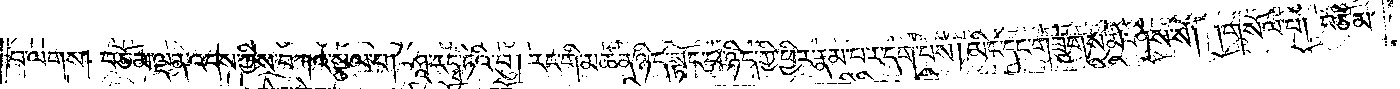བ་ལགས། བཅོམ་ལྡན་འདས་ཀྱིས་བཀའ་སྩལ་པ། ཤཱ་ར་དྭ་ཏིའི་བུ། རང་གི་མཚན་ཉིད་སྟོང་པ་ཉིད་ཀྱི་ཕྱིར་རྣམ་པར་དག་པས། མིང་དང་གཟུགས་མི་ཤེས་སོ། །གསོལ་པ། བཅོམ་
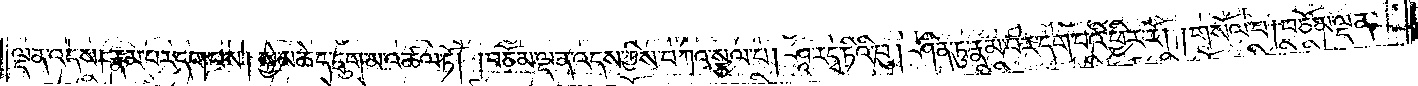ལྡན་འདས། རྣམ་པར་དག་པས། སྐྱེ་མཆེད་དྲུག་མ་འཚལ་ཏོ། །བཅོམ་ལྡན་འདས་ཀྱིས་བཀའ་སྩལ་པ། ཤཱ་ར་དྭ་ཏིའི་བུ། ཤིན་ཏུ་རྣམ་པར་དག་པའི་ཕྱིར་རོ། །གསོལ་པ། བཅོམ་ལྡན་
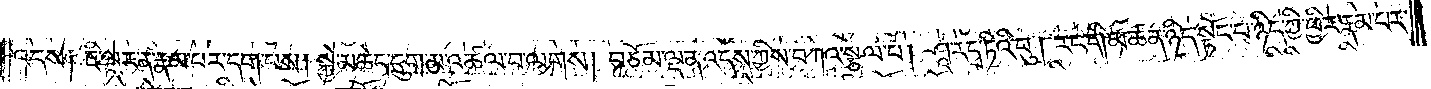འདས༑ ཇི་ལྟར་ན་རྣམ་པར་དག་པས། སྐྱེ་མཆེད་དྲུག་མ་འཚལ་བ་ལགས། བཅོམ་ལྡན་འདས་ཀྱིས་བཀའ་སྩལ་པ། ཤཱ་ར་དྭ་ཏིའི་བུ། རང་གི་མཚན་ཉིད་སྟོང་པ་ཉིད་ཀྱི་ཕྱིར་རྣམ་པར་
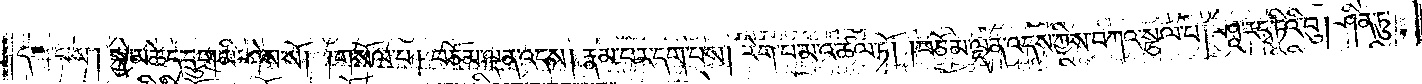དག་པས། སྐྱེ་མཆེད་དྲུག་མི་ཤེས་སོ། །གསོལ་པ། བཅོམ་ལྡན་འདས། རྣམ་པར་དག་པས། རེག་པ་མ་འཚལ་ཏོ། །བཅོམ་ལྡན་འདས་ཀྱིས་བཀའ་སྩལ་པ། ཤཱ་ར་དྭ་ཏིའི་བུ། ཤིན་ཏུ་
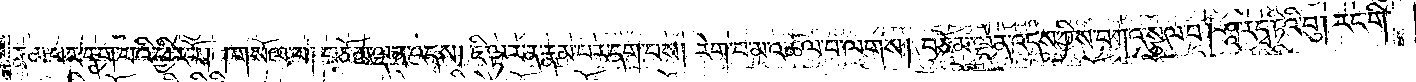རྣམ་པར་དག་པའི་ཕྱིར་རོ། །གསོལ་པ། བཅོམ་ལྡན་འདས། ཇི་ལྟར་ན་རྣམ་པར་དག་པས། རེག་པ་མ་འཚལ་བ་ལགས། བཅོམ་ལྡན་འདས་ཀྱིས་བཀའ་སྩལ་པ། ཤཱ་ར་དྭ་ཏིའི་བུ། རང་གི་
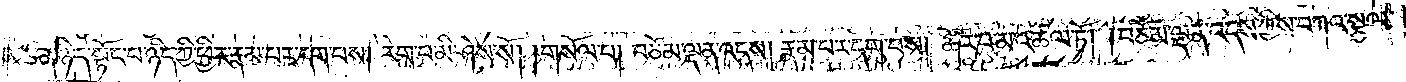མཚན་ཉིད་སྟོང་པ་ཉིད་ཀྱི་ཕྱིར་རྣམ་པར་དག་པས། རེག་པ་མི་ཤེས་སོ། །གསོལ་པ། བཅོམ་ལྡན་འདས། རྣམ་པར་དག་པས། ཚོར་བ་མ་འཚལ་ཏོ། །བཅོམ་ལྡན་འདས་ཀྱིས་བཀའ་སྩལ་
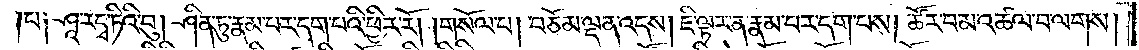པ༑ ཤཱ་ར་དྭ་ཏིའི་བུ། ཤིན་ཏུ་རྣམ་པར་དག་པའི་ཕྱིར་རོ། །གསོལ་པ། བཅོམ་ལྡན་འདས། ཇི་ལྟར་ན་རྣམ་པར་དག་པས། ཚོར་བ་མ་འཚལ་བ་ལགས།
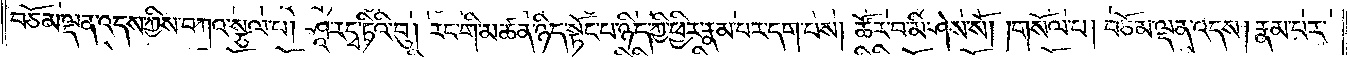བཅོམ་ལྡན་འདས་ཀྱིས་བཀའ་སྩལ་པ། ཤཱ་ར་དྭ་ཏིའི་བུ། རང་གི་མཚན་ཉིད་སྟོང་པ་ཉིད་ཀྱི་ཕྱིར་རྣམ་པར་དག་པས། ཚོར་བ་མི་ཤེས་སོ། །གསོལ་པ། བཅོམ་ལྡན་འདས། རྣམ་པར་
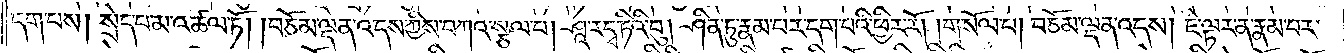དག་པས། སྲེད་པ་མ་འཚལ་ཏོ། །བཅོམ་ལྡན་འདས་ཀྱིས་བཀའ་སྩལ་པ། ཤཱ་ར་དྭ་ཏིའི་བུ། ཤིན་ཏུ་རྣམ་པར་དག་པའི་ཕྱིར་རོ། །གསོལ་པ། བཅོམ་ལྡན་འདས། ཇི་ལྟར་ན་རྣམ་པར་
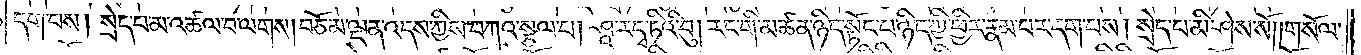དག་པས། སྲེད་པ་མ་འཚལ་བ་ལགས། བཅོམ་ལྡན་འདས་ཀྱིས་བཀའ་སྩལ་པ། ཤཱ་ར་དྭ་ཏིའི་བུ། རང་གི་མཚན་ཉིད་སྟོང་པ་ཉིད་ཀྱི་ཕྱིར་རྣམ་པར་དག་པས། སྲེད་པ་མི་ཤེས་སོ། །གསོལ་
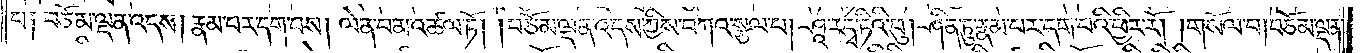པ༑ བཅོམ་ལྡན་འདས། རྣམ་པར་དག་པས། ལེན་པ་མ་འཚལ་ཏོ། །བཅོམ་ལྡན་འདས་ཀྱིས་བཀའ་སྩལ་པ། ཤཱ་ར་དྭ་ཏིའི་བུ། ཤིན་ཏུ་རྣམ་པར་དག་པའི་ཕྱིར་རོ། །གསོལ་པ། བཅོམ་ལྡན་
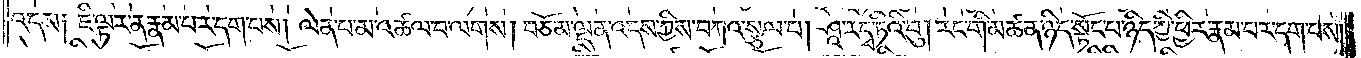འདས༑ ཇི་ལྟར་ན་རྣམ་པར་དག་པས། ལེན་པ་མ་འཚལ་བ་ལགས། བཅོམ་ལྡན་འདས་ཀྱིས་བཀའ་སྩལ་པ། ཤཱ་ར་དྭ་ཏིའི་བུ། རང་གི་མཚན་ཉིད་སྟོང་པ་ཉིད་ཀྱི་ཕྱིར་རྣམ་པར་དག་པས།
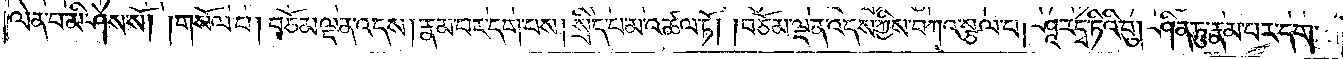ལེན་པ་མི་ཤེས་སོ། །གསོལ་པ། བཅོམ་ལྡན་འདས། རྣམ་པར་དག་པས། སྲིད་པ་མ་འཚལ་ཏོ། །བཅོམ་ལྡན་འདས་ཀྱིས་བཀའ་སྩལ་པ། ཤཱ་ར་དྭ་ཏིའི་བུ། ཤིན་ཏུ་རྣམ་པར་དག་
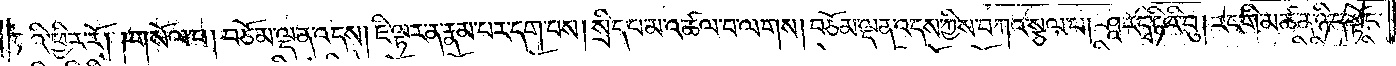པའི་ཕྱིར་རོ། །གསོལ་པ། བཅོམ་ལྡན་འདས། ཇི་ལྟར་ན་རྣམ་པར་དག་པས། སྲིད་པ་མ་འཚལ་བ་ལགས། བཅོམ་ལྡན་འདས་ཀྱིས་བཀའ་སྩལ་པ། ཤཱ་ར་དྭ་ཏིའི་བུ། རང་གི་མཚན་ཉིད་སྟོང་
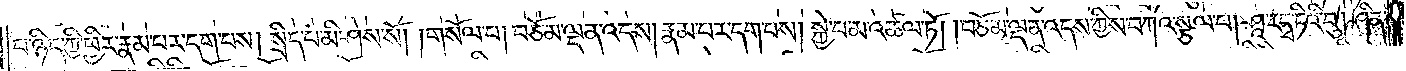པ་ཉིད་ཀྱི་ཕྱིར་རྣམ་པར་དག་པས། སྲིད་པ་མི་ཤེས་སོ། །གསོལ་པ། བཅོམ་ལྡན་འདས། རྣམ་པར་དག་པས། སྐྱེ་བ་མ་འཚལ་ཏོ། །བཅོམ་ལྡན་འདས་ཀྱིས་བཀའ་སྩལ་པ། ཤཱ་ར་དྭ་ཏིའི་བུ། ཤིན་
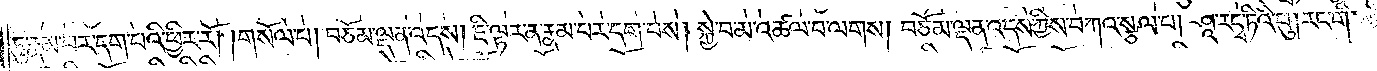ཏུ་རྣམ་པར་དག་པའི་ཕྱིར་རོ། །གསོལ་པ། བཅོམ་ལྡན་འདས། ཇི་ལྟར་ན་རྣམ་པར་དག་པས། སྐྱེ་བ་མ་འཚལ་བ་ལགས། བཅོམ་ལྡན་འདས་ཀྱིས་བཀའ་སྩལ་པ། ཤཱ་ར་དྭ་ཏིའི་བུ། རང་གི་
